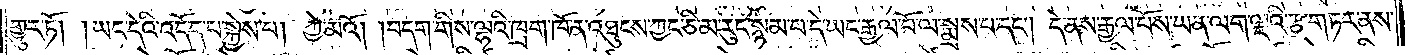གྱུར་ཏོ། །ཡང་དེའི་འདོད་པ་སྐྱེས་པ། ཀྱེ་མའོ། །བདག་གིས་ལྷའི་ཁྲག་ཁོ་ན་འཐུངས་ཀྱང་ཅི་མ་རུང་སྙམ་པ་དེ་ཡང་རྒྱལ་པོ་ལ་སྨྲས་པ་དང༌། དེ་ནས་རྒྱལ་པོས་ཡན་ལག་ལྔའི་རྩ་གཏར་ནས་
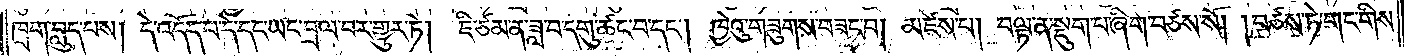ཁྲག་བླུད་པས། དེ་འདོད་པ་དེ་དང་ཡང་བྲལ་བར་གྱུར་ཏེ། ཇི་ཙམ་ན་ཟླ་བ་དགུ་ཚང་བ་དང༌། ཁྱེའུ་གཟུགས་བཟང་བ། མཛེས་པ། བལྟ་ན་སྡུག་པ་ཞིག་བཙས་སོ། །བཙས་ཏེ་གང་གིས་
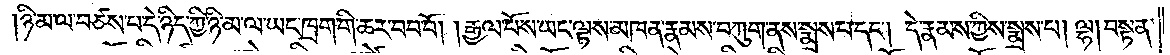ཉི་མ་ལ་བཙས་པ་དེ་ཉིད་ཀྱི་ཉི་མ་ལ་ཡང་ཁྲག་གི་ཆར་བབ་བོ། །རྒྱལ་པོས་ཡང་ལྟས་མཁན་རྣམས་བཀུག་ནས་སྨྲས་པ་དང༌། དེ་རྣམས་ཀྱིས་སྨྲས་པ། ལྷ། བསྟན་
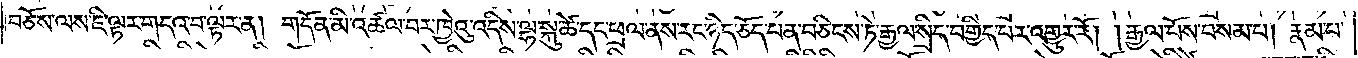བཅོས་ལས་ཇི་ལྟར་གདའ་བ་ལྟར་ན། གདོན་མི་འཚལ་བར་ཁྱེའུ་འདིས་ལྷ་སྐུ་ཚེ་དང་ཕྲལ་ནས་རང་ཉིད་ཅོད་པན་བཅིངས་ཏེ་རྒྱལ་སྲིད་བགྱིད་པར་འགྱུར་རོ། །རྒྱལ་པོས་བསམ་པ། རྣམ་པ་
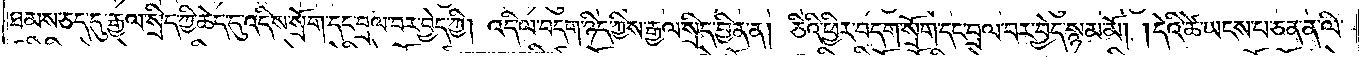ཐམས་ཅད་དུ་རྒྱལ་སྲིད་ཀྱི་ཆེད་དུ་འདིས་སྲོག་དང་བྲལ་བར་བྱེད་ཀྱི། འདི་ལ་བདག་ཉིད་ཀྱིས་རྒྱལ་སྲིད་བྱིན་ན། ཅིའི་ཕྱིར་བདག་སྲོག་དང་བྲལ་བར་བྱེད་སྙམ་མོ། །དེའི་ཚེ་ཡངས་པ་ཅན་ན་ལི་
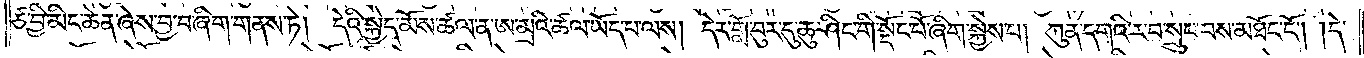ཙ་བྱི་མིང་ཆེན་ཞེས་བྱ་བ་ཞིག་གནས་ཏེ། དེའི་སྐྱེད་མོས་ཚལ་ན་ཨ་མྲའི་ཚལ་ཡོད་པ་ལས། དེར་གློ་བུར་དུ་ཆུ་ཤིང་གི་སྡོང་པོ་ཞིག་སྐྱེས་པ། ཀུན་དགའི་ར་བ་སྲུང་བས་མཐོང་ངོ༌། །དེ་
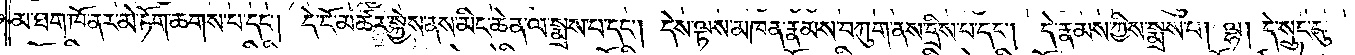མ་ཐག་ཁོ་ནར་མེ་ཏོག་ཆགས་པ་དང༌། དེ་ངོ་མཚར་སྐྱེས་ནས་མིང་ཆེན་ལ་སྨྲས་པ་དང༌། དེས་ལྟས་མཁན་རྣམས་བཀུག་ནས་དྲིས་པ་དང༌། དེ་རྣམས་ཀྱིས་སྨྲས་པ། ལྷ། དེ་སྲུང་དུ་
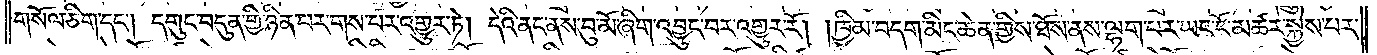གསོལ་ཅིག་དང༌། དགུང་བདུན་གྱི་ཉིན་པར་གས་པར་འགྱུར་ཏེ། དེའི་ནང་ནས་བུ་མོ་ཞིག་འབྱུང་བར་འགྱུར་རོ། །ཁྱིམ་བདག་མིང་ཆེན་གྱིས་ཐོས་ནས་ལྷག་པར་ཡང་ངོ་མཚར་སྐྱེས་པར་
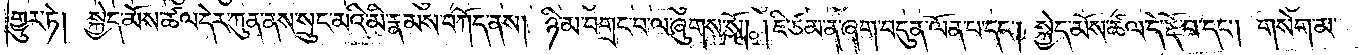གྱུར་ཏེ། སྐྱེད་མོས་ཚལ་དེར་ཀུན་ནས་སྲུང་མའི་མི་རྣམས་བཀོད་ནས། ཉི་མ་བགྲང་པ་ལ་ཞུགས་སོ། །ཇི་ཙམ་ན་ཞག་བདུན་ལོན་པ་དང༌། སྐྱེད་མོས་ཚལ་དེ་རྡོ་བ་དང༌། གསེག་མ་
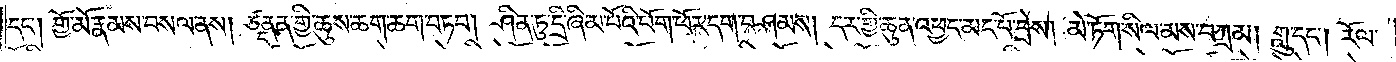དང༌། གྱོ་མོ་རྣམས་བསལ་ནས། ཙནྡན་གྱི་ཆུས་ཆག་ཆག་བཏབ། ཤིན་ཏུ་དྲི་ཞིམ་པོའི་པོག་ཕོར་དག་བཤམས། དར་གྱི་ཆུན་འཕྱང་མང་པོ་བྲེས། མེ་ཏོག་སིལ་མས་བཀྲམ། གླུ་དང༌། རོལ་
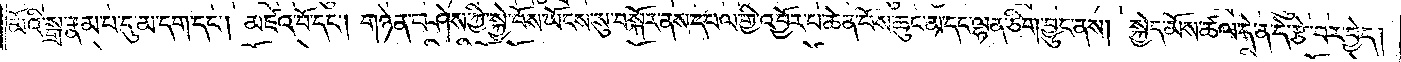མོའི་སྒྲ་རྣམ་པ་དུ་མ་དག་དང༌། མཛའ་བོ་དང༌། གཉེན་བཤེས་ཀྱི་སྐྱེ་བོས་ཡོངས་སུ་བསྐོར་ནས་དཔལ་གྱི་འབྱོར་པ་ཆེན་པོས་ཆུང་མ་དང་ལྷན་ཅིག་བྱུང་ནས། སྐྱེད་མོས་ཚལ་དེ་ན་དེ་རྩེ་བར་བྱེད།
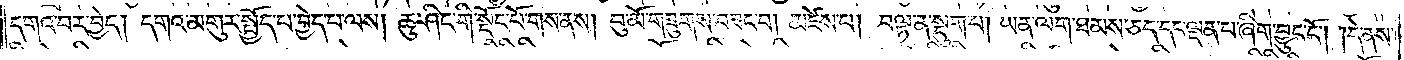དགའ་བར་བྱེད། དགའ་མགུར་སྤྱོད་པ་བྱེད་པ་ལས། ཆུ་ཤིང་གི་སྡོང་པོ་གས་ནས། བུ་མོ་གཟུགས་བཟང་བ། མཛེས་པ། བལྟ་ན་སྡུག་པ། ཡན་ལག་ཐམས་ཅད་དང་ལྡན་པ་ཞིག་བྱུང་ངོ༌། །དེ་ནས་
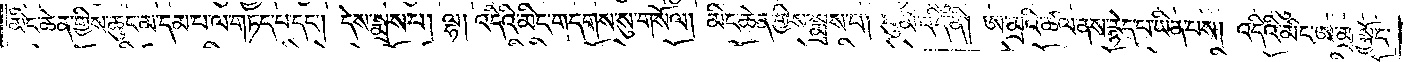མིང་ཆེན་གྱིས་ཆུང་མ་དམ་པ་ལ་གཏད་པ་དང༌། དེས་སྨྲས་པ། ལྷ། འདིའི་མིང་གདགས་སུ་གསོལ། མིང་ཆེན་གྱིས་སྨྲས་པ། བུ་མོ་འདི་ནི། ཨ་མྲའི་ཚལ་ནས་རྙེད་པ་ཡིན་པས། འདིའི་མིང་ཨ་མྲ་སྐྱོང་
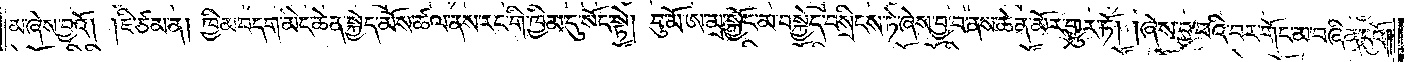མ་ཞེས་བྱའོ། །ཇི་ཙམ་ན། ཁྱིམ་བདག་མིང་ཆེན་སྐྱེད་མོས་ཚལ་ནས་རང་གི་ཁྱིམ་དུ་སོང་སྟེ། བུ་མོ་ཨ་མྲ་སྐྱོང་མ་བསྐྱེད་བསྲིངས་ཏེ་ཞེས་བྱ་བ་ནས་ཆེན་མོར་གྱུར་ཏོ། །ཞེས་བྱ་བའི་བར་གོང་མ་བཞིན་དུའོ༎
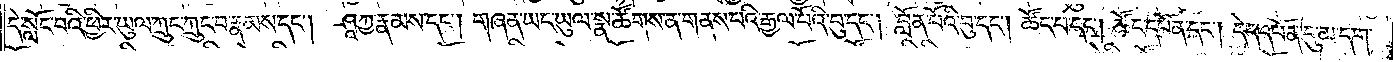དེ་སློང་བའི་ཕྱིར་ཡུལ་ཀྲུང་ཀྲུང་བ་རྣམས་དང༌། ཤཱཀྱ་རྣམས་དང༌། གཞན་ཡང་ཡུལ་སྣ་ཚོགས་ན་གནས་པའི་རྒྱལ་པོའི་བུ་དང༌། བློན་པོའི་བུ་དང༌། ཚོང་པ་དང༌། ཚོང་དཔོན་དང༌། དེད་དཔོན་དུ་མ་དག་
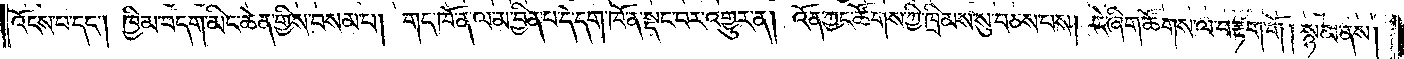འོངས་པ་དང༌། ཁྱིམ་བདག་མིང་ཆེན་གྱིས་བསམ་པ། གང་ཁོ་ན་ལ་མ་བྱིན་པ་དེ་དག་ཁོ་ན་སྡང་བར་འགྱུར་ན། འོན་ཀྱང་ཚོགས་ཀྱི་ཁྲིམས་སུ་བཅས་པས། རེ་ཞིག་ཚོགས་ལ་བརྟག་གོ། སྙམ་ནས།
